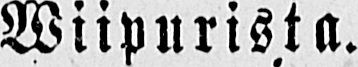Wiipurista.
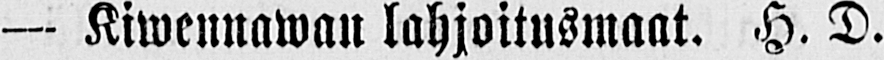— Kiwennawan lahjoitusmaat. H. D.
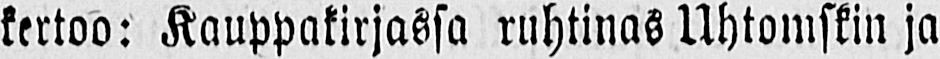kertoo: Kauppakirjassa ruhtinas Uhtomskin ja
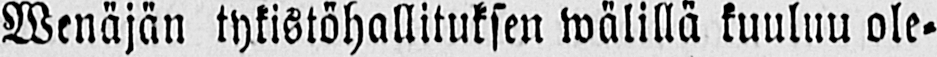Wenäjän tykistöhallituksen wälillä kuuluu ole-
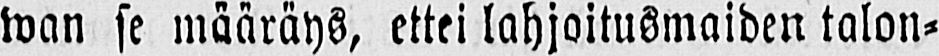wan se määräys, ettei lahjoitusmaiden talon-
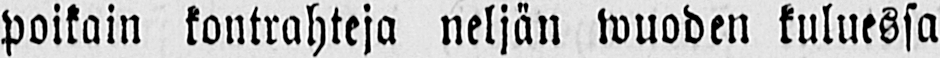poikain kontrahteja neljän wuoden kuluessa
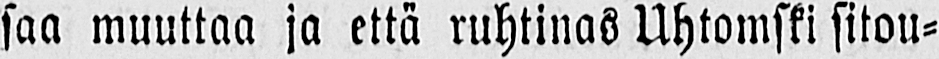saa muuttaa ja että ruhtinas Uhtomski sitou-
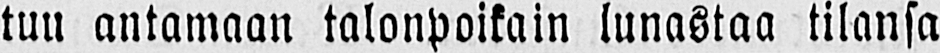tuu antamaan talonpoikain lunastaa tilansa
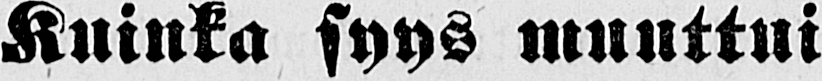Kuinka syys muuttui
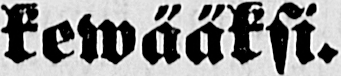kewääksi.
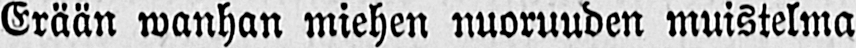Erään wanhan miehen nuoruuden muistelma .
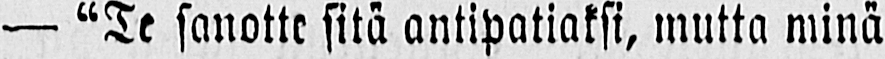— "Te sanotte sitä antipatiaksi, mutta minä
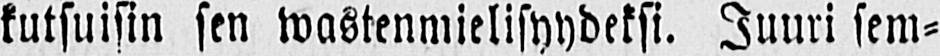kutsuisin sen wastenmielisyydeksi. Juuri sem-
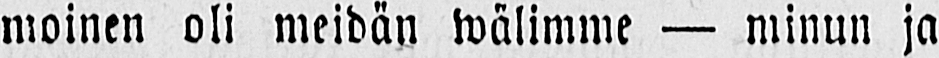moinen oli meidän wälimme — minun ja
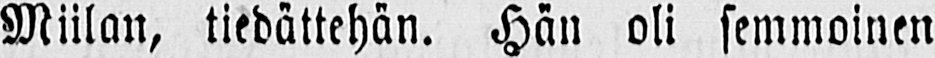Miilan, tiedättehän. Hän oli semmoinen
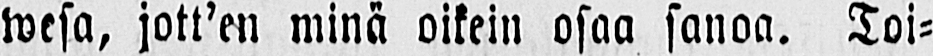wesa, jott'en minä oikein osaa sanoa. Toi-
